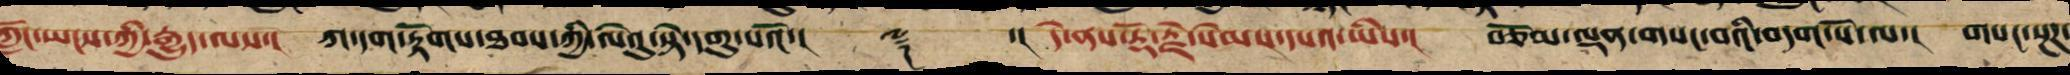ཀློང་ཡངས་ཀྱི་རྒྱུད་ལས་། ཀ་དག་རྟོགས་ཐབས་ཀྱི་ལེའུ་སྟེ་བཅུ་པའོ་།། ༈ ་།། དེ་ནས་རྡོ་རྗེ་སེམས་དཔའ་ཡིས་། བཅོམ་ལྡན་གསང་བའི་བདག་པོ་ལ་། གསང་སྔཌ་
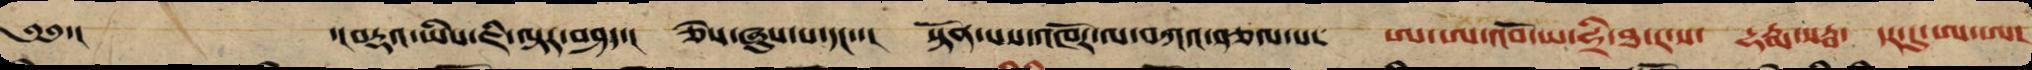༄༅་།  ་།བརྡའ་ཡིས་ཇི་ལྟར་བཤད་། ཅེས་ཞུས་པ་དང་་། སྟོན་པས་འཁོར་ལ་བཀའ་སྩལ་པ་། ཨ་ཨ་བྷོ་ཡ་ཧྲི་ཐ་ར་ས་ དྷརྨ་སརྦ་ དར་དུ་ཨ་ཨ།
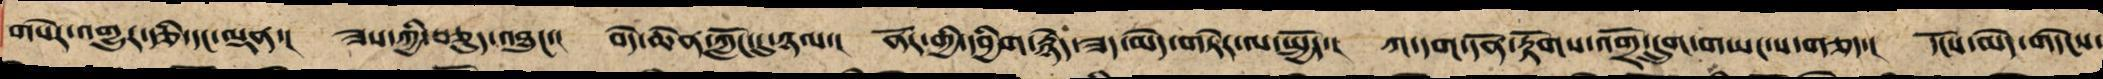གསེར་འགྱུར་རྩི་དང་ལྡན་། ཟས་ཀྱི་བཅུད་འཐུང་། བདེ་ཆེན་ཀློང་དུ་ཉལ་། ནོར་གྱི་དབྱིག་རྙེད་ཟད་མེད་གཏེར་ལ་སྤྱོད་། ཀ་དག་དོན་རྟོགས་འགྲོ་དྲུག་གཡང་ས་གཅད་། དངོས་མེད་གདེངས་
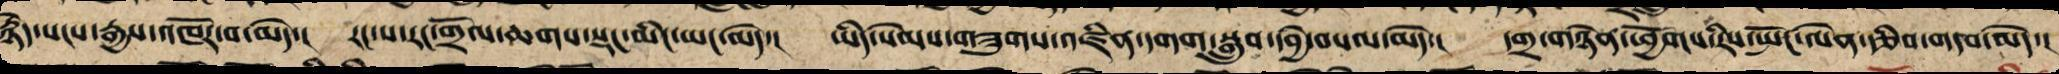རྙེད་སངས་རྒྱས་འཁོར་བ་མེད་། རང་སར་རང་གྲོལ་ཆགས་སྡང་མིང་ཡང་མེད་། ཡུལ་སེམས་གཟུང་འཛིན་དགག་སྒྲུབ་དབྱེ་བསལ་མེད་། དགྲ་གཉེན་ཕྱོགས་རིས་སྤོང་ལེན་རྩིབ་གདབ་མེད་།
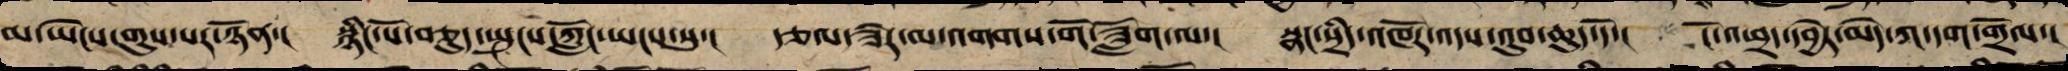མ་ཡེངས་གུས་པར་ཉོན་། སྙིང་པོ་བཅུད་སྤུངས་ཀློང་ཡངས་སུ་། རྩལ་ཟེར་མ་འགགས་གོ་ཟློག་ལ་། སྣང་སྲིད་འཁོར་འདས་འུབ་ཆུད་དོ་། ངོ་འཕྲད་དབྱེར་མེད་ཀ་དག་གྲོལ་།
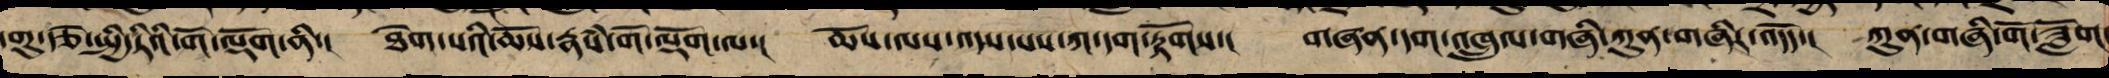དགུ་རྩེ་སྤྱི་ཏིའི་གོ་ལྡོག་ནི་། ཐེག་པའི་ཆོས་རྣཾས་གོ་ལྡོག་ལ་། ཆོས་ལས་འདས་པས་ཀ་དག་རྟོགས་། གཞན་དག་འཁྲུལ་གཞི་ཀུན་གཞིར་འདོད་། ཀུན་གཞི་གོ་ཟློག་
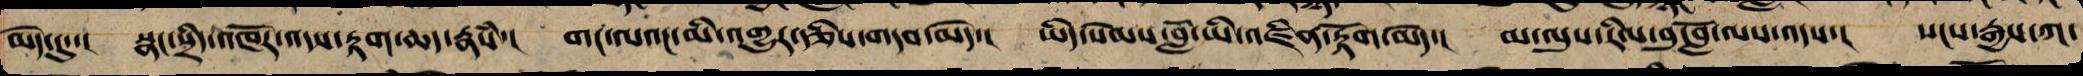མེད་དུ་། སྣང་སྲིད་འཁོར་འདས་རྟག་ཆད་རྣཾས་། གང་ལའང་མི་འགྱུར་རྩིས་གདབ་མེད་། ཡིད་སེམས་བློ་ཡི་འཛིན་རྟོག་མེད་། མ་ལུས་རིལ་པོ་བློ་ལས་འདས་། སངས་རྒྱས་ཀ་
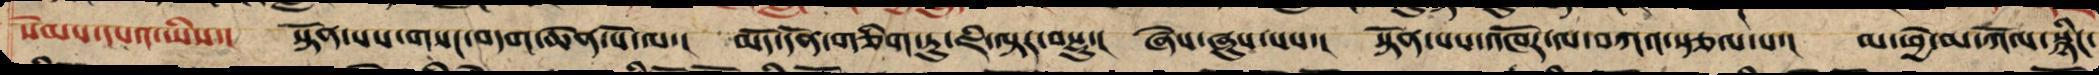སེམས་དཔའ་ཡིས་། སྟོན་པ་གསང་བདག་ཆེན་པོ་ལ་། མདོ་དོན་གཅིག་ཏུ་ཇི་ལྟར་བསྡུ་། ཞེས་ཞུས་པས་། སྟོན་པས་འཁོར་ལ་བཀའ་སྩལ་པ་། མ་ཕྱེ་མ་ཀོལ་སྙིང་
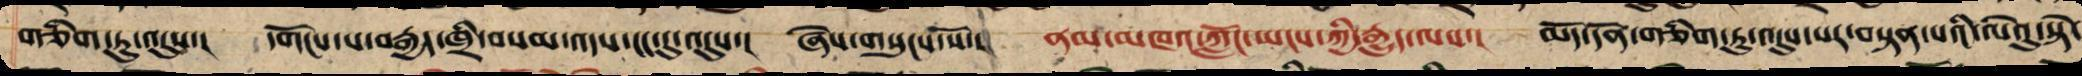གཅིག་ཏུ་འདུས་། དགོངས་པ་བརྒྱད་ཁྲི་བསམ་འདས་ངང་དུ་འདུས་། ཞེས་གསུངས་སོ་། ནམ་མཁའ་ཀློང་ཡངས་ཀྱི་རྒྱུད་ལས་། མདོ་དོན་གཅིག་ཏུ་འདུས་པར་བསྟན་པའི་ལེའུ་སྟེ་
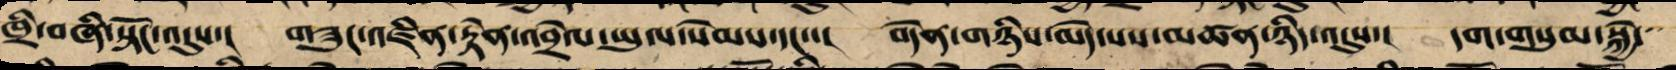ཁྲི་བཞི་སྟོང་འདུས་། གཟུང་འཛིན་རྟེན་འབྲེལ་ཡུལ་སེམས་དང་་། བདེན་གཉིས་མེད་པས་མཚན་ཉིད་འདུས་། དག་གསུམ་སྐྱེ་
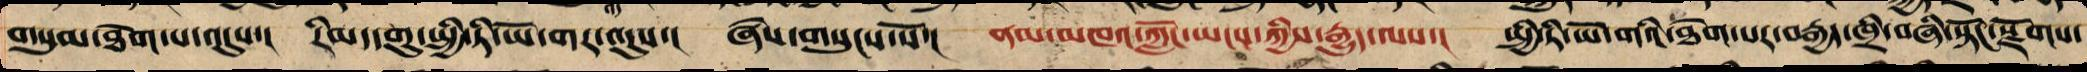གསུམ་ཐེག་པ་འདུས་། རིམ་དགུ་སྤྱི་ཏི་ཡོ་གར་འདུས་། ཞེས་གསུངས་སོ་། ནམ་མཁའ་ཀློང་ཡངས་ཀྱི་རྒྱུད་ལས་། སྤྱི་ཏི་ཡོ་གའི་ཐེག་པར་བརྒྱད་ཁྲི་བཞི་སྟོང་སྫོགས་
